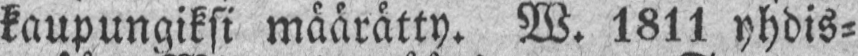kaupungiksi määrätty. W. 1811 yhdis-
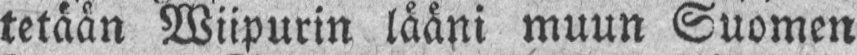tetään Wiipurin lääni muun Suomen
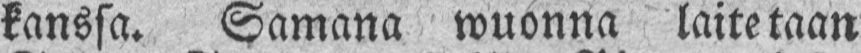kanssa. Samana wuonna laitetaan
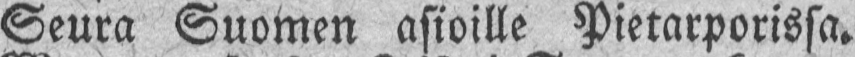Seura Suomen asioille Pietarporissa.
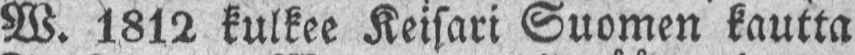W. 1812 kulkee Keisari Suomen kautta
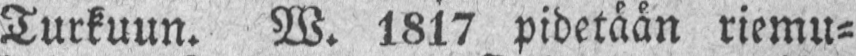Turkuun. W. 1817 pidetään riemu-
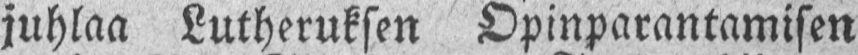juhlaa Lutheruksen Opinparantamisen
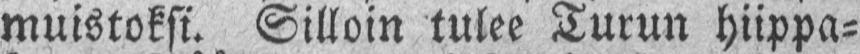muistoksi. Silloin tulee Turun hiippa-
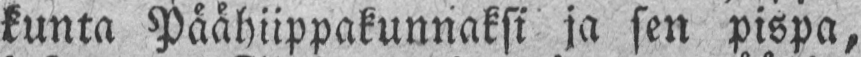kunta Päähiippakunnaksi ja sen pispa,
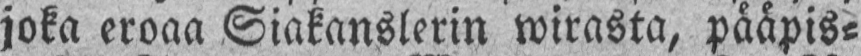joka eroaa Siakanslerin wirasta, pääpis-
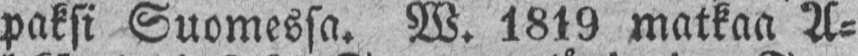paksi Suomessa. W. 1819 matkaa A-
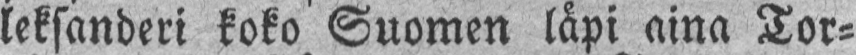leksanderi koko Suomen läpi aina Tor-
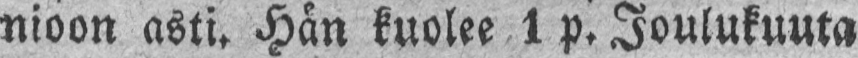nioon asti. Hän kuolee 1 p. Joulukuuta
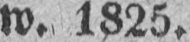w. 1825.
